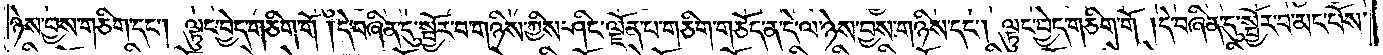ཉེས་བྱས་གཅིག་དང༌། ལྟུང་བྱེད་གཅིག་གོ །དེ་བཞིན་དུ་སྦྱོར་བ་གཉིས་ཀྱིས་ཤིང་ལྗོན་པ་གཅིག་གཅོད་ན་དེ་ལ་ཉེས་བྱས་གཉིས་དང༌། ལྟུང་བྱེད་གཅིག་གོ །དེ་བཞིན་དུ་སྦྱོར་བ་མང་པོས་
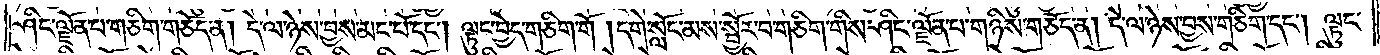ཤིང་ལྗོན་པ་གཅིག་གཅོད་ན། དེ་ལ་ཉེས་བྱས་མང་པོ་དང༌། ལྟུང་བྱེད་གཅིག་གོ །དགེ་སློང་མས་སྦྱོར་བ་གཅིག་གིས་ཤིང་ལྗོན་པ་གཉིས་གཅོད་ན། དེ་ལ་ཉེས་བྱས་གཅིག་དང༌། ལྟུང་
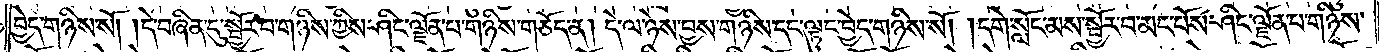བྱེད་གཉིས་སོ། །དེ་བཞིན་དུ་སྦྱོར་བ་གཉིས་ཀྱིས་ཤིང་ལྗོན་པ་གཉིས་གཅོད་ན། དེ་ལ་ཉེས་བྱས་གཉིས་དང་ལྟུང་བྱེད་གཉིས་སོ། །དགེ་སློང་མས་སྦྱོར་བ་མང་པོས་ཤིང་ལྗོན་པ་གཉིས་
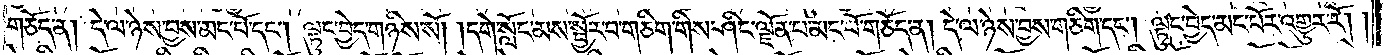གཅོད་ན། དེ་ལ་ཉེས་བྱས་མང་པོ་དང༌། ལྟུང་བྱེད་གཉིས་སོ། །དགེ་སློང་མས་སྦྱོར་བ་གཅིག་གིས་ཤིང་ལྗོན་པ་མང་པོ་གཅོད་ན། དེ་ལ་ཉེས་བྱས་གཅིག་དང༌། ལྟུང་བྱེད་མང་པོར་འགྱུར་རོ། །
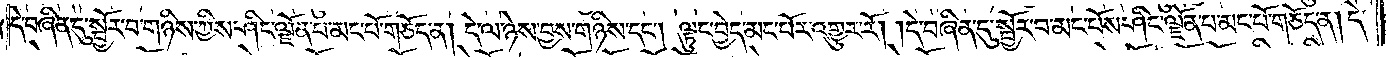དེ་བཞིན་དུ་སྦྱོར་བ་གཉིས་ཀྱིས་ཤིང་ལྗོན་པ་མང་པོ་གཅོད་ན། དེ་ལ་ཉེས་བྱས་གཉིས་དང༌། ལྟུང་བྱེད་མང་པོར་འགྱུར་རོ། །དེ་བཞིན་དུ་སྦྱོར་བ་མང་པོས་ཤིང་ལྗོན་པ་མང་པོ་གཅོད་ན། དེ་
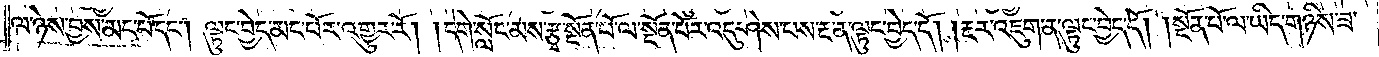ལ་ཉེས་བྱས་མང་པོ་དང༌། ལྟུང་བྱེད་མང་པོར་འགྱུར་རོ། །དགེ་སློང་མས་རྩྭ་སྔོན་པོ་ལ་སྔོན་པོར་འདུ་ཤེས་པས་རྔ་ན་ལྟུང་བྱེད་དོ། །རྔར་འཇུག་ན་ལྟུང་བྱེད་དོ། །སྔོན་པོ་ལ་ཡིད་གཉིས་ཟ་
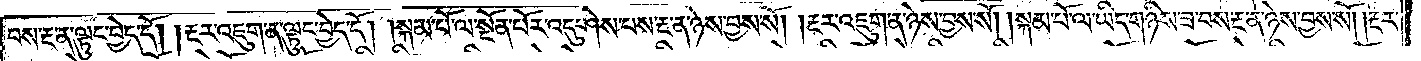བས་རྔ་ན་ལྟུང་བྱེད་དོ། །རྔར་འཇུག་ན་ལྟུང་བྱེད་དོ། །སྐམ་པོ་ལ་སྔོན་པོར་འདུ་ཤེས་པས་རྔ་ན་ཉེས་བྱས་སོ། །རྔར་འཇུག་ན་ཉེས་བྱས་སོ། །སྐམ་པོ་ལ་ཡིད་གཉིས་ཟ་བས་རྔ་ན་ཉེས་བྱས་སོ། །རྔར་
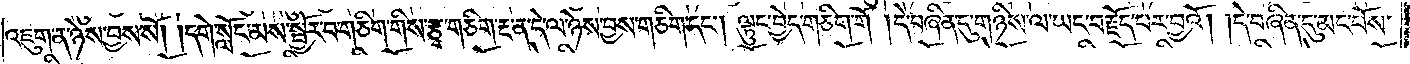འཇུག་ན་ཉེས་བྱས་སོ། །དགེ་སློང་མས་སྦྱོར་བ་གཅིག་གིས་རྩྭ་གཅིག་རྔ་ན་དེ་ལ་ཉེས་བྱས་གཅིག་དང༌། ལྟུང་བྱེད་གཅིག་གོ །དེ་བཞིན་དུ་གཉིས་ལ་ཡང་བརྗོད་པར་བྱའོ། །དེ་བཞིན་དུ་མང་པོས་
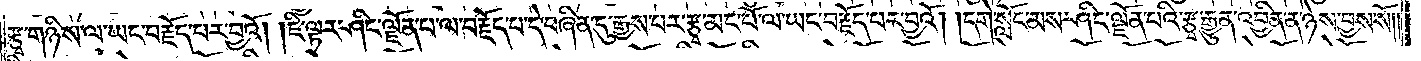རྩྭ་གཉིས་ལ་ཡང་བརྗོད་པར་བྱའོ། །ཇི་ལྟར་ཤིང་ལྗོན་པ་ལ་བརྗོད་པ་དེ་བཞིན་དུ་རྒྱས་པར་རྩྭ་མང་པོ་ལ་ཡང་བརྗོད་པར་བྱའོ། །དགེ་སློང་མས་ཤིང་ལྗོན་པའི་རྩྭ་རྒྱུན་འབྱིན་ན་ཉེས་བྱས་སོ༎
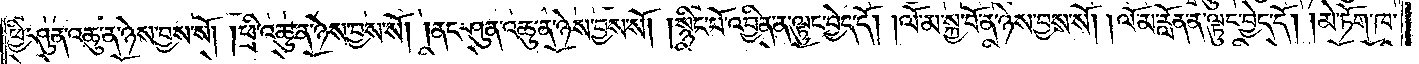ཕྱི་ཤུན་འཆུ་ན་ཉེས་བྱས་སོ། །ཕྲི་འཆུ་ན་ཉེས་བྱས་སོ། །ནང་ཤུན་འཆུ་ན་ཉེས་བྱས་སོ། །སྙིང་པོ་འབྱིན་ན་ལྟུང་བྱེད་དོ། །ལོ་མ་སྐྱ་བོ་ན་ཉེས་བྱས་སོ། །ལོ་མ་རློན་ན་ལྟུང་བྱེད་དོ། །མེ་ཏོག་ཁ་
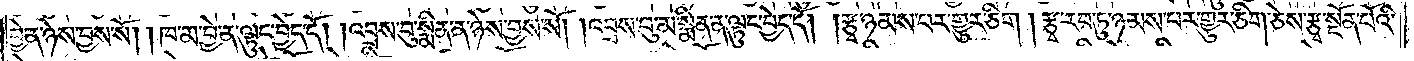བྱེ་ན་ཉེས་བྱས་སོ། །ཁ་མ་བྱེ་ན་ལྟུང་བྱེད་དོ། །འབྲས་བུ་སྨིན་ན་ཉེས་བྱས་སོ། །འབྲས་བུ་མ་སྨིན་ན་ལྟུང་བྱེད་དོ། །རྩྭ་ཉམས་པར་གྱུར་ཅིག། །རྩྭ་རབ་ཏུ་ཉམས་པར་གྱུར་ཅིག་ཅེས་རྩྭ་སྔོན་པོའི་
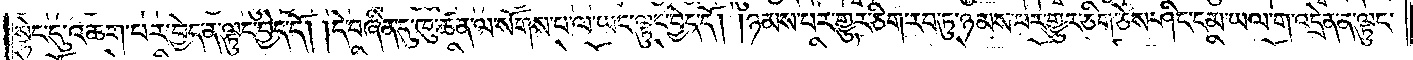སྟེང་དུ་འཆག་པར་བྱེད་ན་ལྟུང་བྱེད་དོ། །དེ་བཞིན་དུ་ཁུ་ཚན་ལ་སོགས་པ་ལ་ཡང་ལྟུང་བྱེད་དོ། །ཉམས་པར་གྱུར་ཅིག་རབ་ཏུ་ཉམས་པར་གྱུར་ཅིག་ཅེས་ཤིང་ངམ་ཡལ་ག་འདྲེན་ན་ལྟུང་
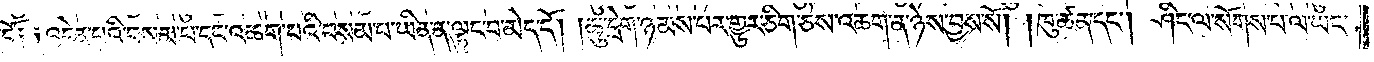དོ༑ ༑འདྲེན་པའི་བསམ་པ་དང་འཆག་པའི་བསམ་པ་ཡིན་ན་ལྟུང་བ་མེད་དོ། །ཆུ་དྲེག་ཉམས་པར་གྱུར་ཅིག་ཅེས་འཆག་ན་ཉེས་བྱས་སོ། །ཁུ་ཚན་དང༌། ཤིང་ལ་སོགས་པ་ལ་ཡང་
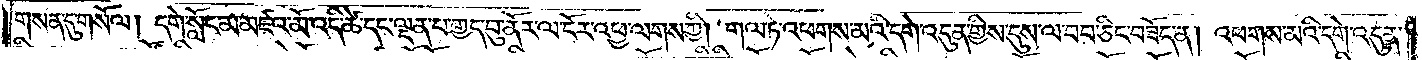གསན་དུ་གསོལ། དགེ་སློང་མ་མཛའ་མོ་འདི་ཚེ་དང་ལྡན་པ་གྱད་བུ་ནོར་ལ་ངོར་འཕྱ་ལགས་ཀྱི། གལ་ཏེ་འཕགས་མའི་དགེ་འདུན་གྱིས་དུས་ལ་བབ་ཅིང་བཟོད་ན། འཕགས་མའི་དགེ་འདུན་
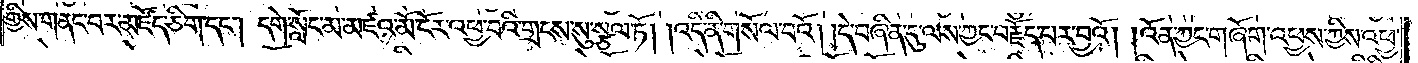གྱིས་གནང་བར་མཛོད་ཅིག་དང༌། དགེ་སློང་མ་མཛའ་མོ་ངོར་འཕྱ་བའི་གྲངས་སུ་སྩལ་ཏོ། །འདི་ནི་གསོལ་བའོ། །དེ་བཞིན་དུ་ལས་ཀྱང་བརྗོད་པར་བྱའོ། །འོན་ཀྱང་གཞོག་འཕྱས་ཀྱིས་འཕྱ་
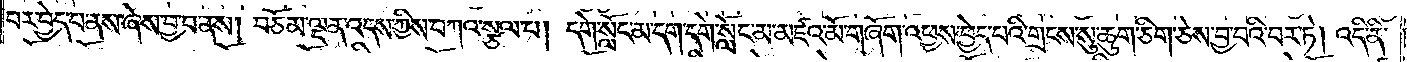བར་བྱེད་པ་ནས་ཞེས་བྱ་བ་ནས། བཅོམ་ལྡན་འདས་ཀྱིས་བཀའ་སྩལ་པ། དགེ་སློང་མ་དག་དགེ་སློང་མ་མཛའ་མོ་གཞོག་འཕྱས་བྱེད་པའི་གྲངས་སུ་ཆུག་ཅིག་ཅེས་བྱ་བའི་བར་ཏེ། འདི་ནི་
